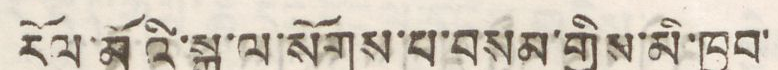རོལ་མོའི་སྒྲ་ལ་སོགས་པ་བསམ་གྱིས་མི་ཁྱབ་
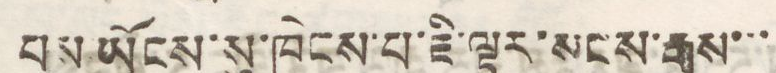པས་ཡོངས་སུ་ཁེངས་པ་ཇི་ལྟར་སངས་རྒྱས་་་
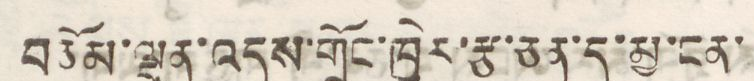བཅོམ་ལྡན་འདས་གྲོང་ཁྱེར་རྩ་ཅན་དུ་མྱ་ངན་
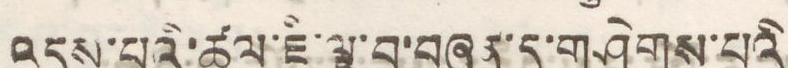འདས་པའི་ཚུལ་ཇི་ལྟ་བ་བཞན་དུ་གཤེགས་པའི་
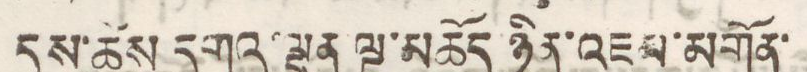དུས་ཚེས་དགའ་ལྡན ལྔ་མཆོད ཉིན་འཇམ་མགོན་
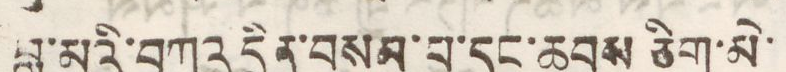བླ་མའི་བཀའ དྲིན་བསམ་པ་དང་ཆབས ཅིག་མེ་
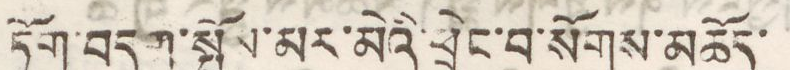ཏོག་བདུག་སྤོམ་མར་མེའི་ཕྲེང་བ་སོགས་མཆོད་
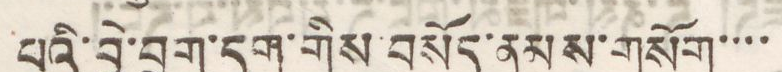པའི་བྱེ་བྲག་དག་གིས་བསོད་ནམས་གསོག་་་་
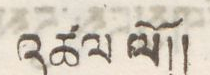འཚལ་ལོ།།
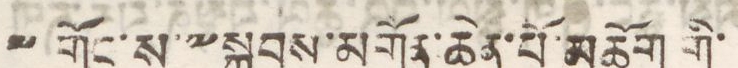༸གོང་ས་༸སྐྱབས་མགོན་ཆེན་པོ་མཆོག གི་
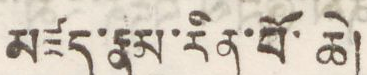མཛད་རྣམ་རིན་པོ་ཆེ།
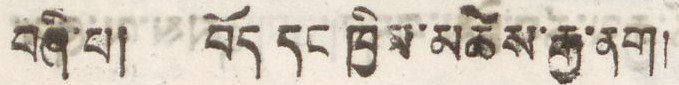བཞི་པ། བོད་དང་ཁྱིམ་མཚེས་རྒྱ་ནག།
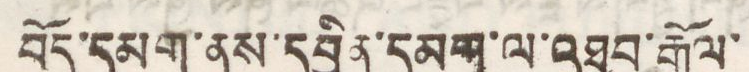བོད་དམག་ནས་དབྱིན་དམག་ལ་འཐབ་རྒོལ་
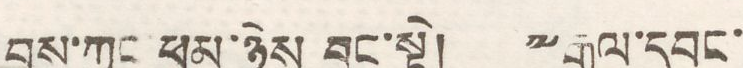བྱས་ཀྱང་ཕབ་ཉེས་བྱུང་སྟེ། ༸རྒྱལ་དབང་
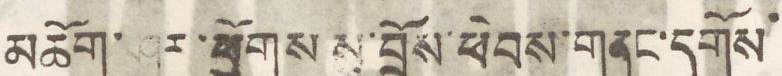མཆོག་ཤར་ཕྱོགས་སུ་བྲོས་ཕེབས་གནང་དགོས
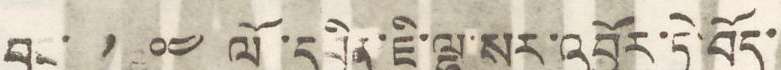བྱུང་ ༡༩༠༤ ལོ་དབྱིན་ཇི་ལྷ་སར་འབྱོར་ཏེ་བོད་
